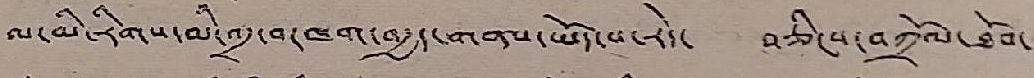ལ་མི་རིགས་མི་འདྲ་བ་ཁག་བརྒྱད་གནས་ཡོད་པ་རེད། བཅིངས་བཀྲོལ་ཐོབ་
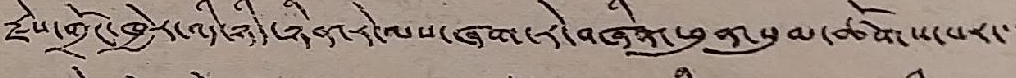རྗེས་གྲོང་ཁྱེར་འདི་ཉིད་ཉིན་རེ་ལས་ཞག་རེ་བཞིན་ཕུན་སུམ་ཚོགས་པར་་་
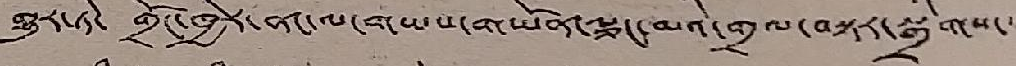གྱུར་ཏེ་ གྲོང་ཁྱེར་ནང་ལ་གཡས་གཡོན་ལྕང་མའི་གྲལ་བསྟར་སྒྲིགས་་་
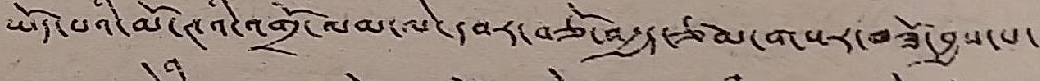ཡོད་པའི་མོ་ཊའི་འགྲོ་ལམ་ལེ་དབར་བཅོ་བརྒྱད་ཙམ་གསར་བཟོ་བྱས་པ་
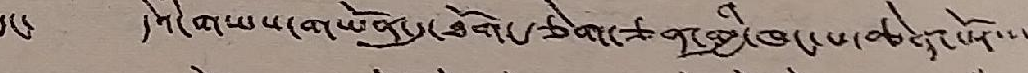དང་ དེའི་གཡས་གཡོན་དུ་ཐོག་རྩེག་ཅན་གྱི་ཁང་པ་ཆེན་པོར་་་
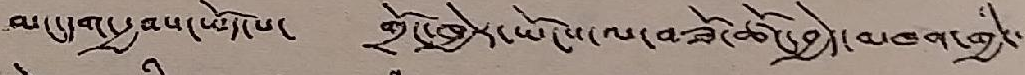མང་དག་རྒྱབས་ཡོད་པ་དང་ གྲོང་ཁྱེར་ཡོངས་ལ་བཟོ་ཚོང་བྱེད་མཁན་གྱི་་
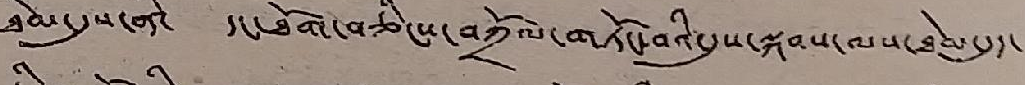ཐེམ་དུས་ནི་ དང་ཐོག་བཅིངས་བཀྲོལ་གཏོང་བའི་དུས་སྐབས་ལས་ཐེམ་དུད་
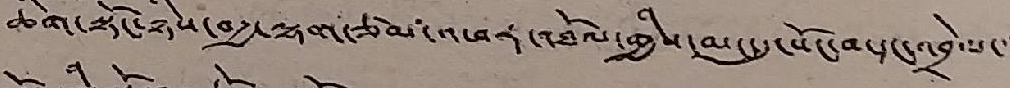ཆིག་སྟོང་ཉིས་བརྒྱ་ལྷག་ཙམ་འཕར་འཐོལ་གྱིས་མང་དུ་སོང་བ་དང་འབྲེལ་་
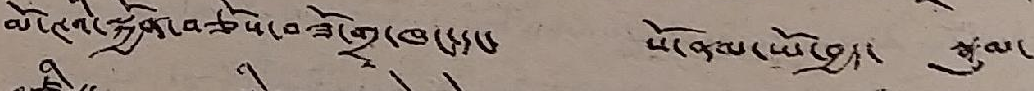མོ་ཊའི་སྐྱོན་བཅོས་བཟོ་གྲྭ་ཁང་དང་ སོ་ནམ་ཡོ་བྱད་ སྣུམ་
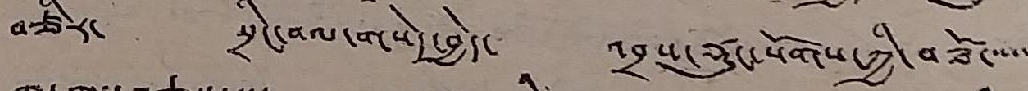བཙིར་ སྲིང་བལ་གསེད་བྱེད་ འབྲས་རྡུང་སོགས་ཀྱི་བཟོ་་་་
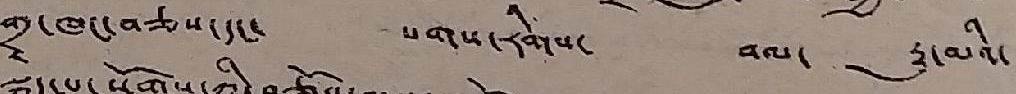གྲྭ་ཁང་བཅས་དང་ པགས་རིགས་ བལ་ རྒྱུ་མའི་
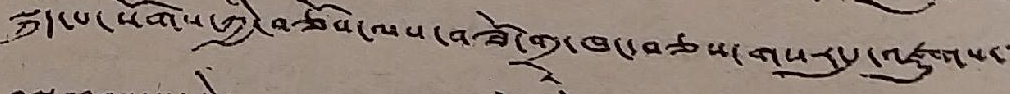སྐུད་པ་སོགས་ཀྱི་བཅོས་ལས་བཟོ་གྲྭ་ཁང་བཅས་གསར་དུ་འཛུགས་་
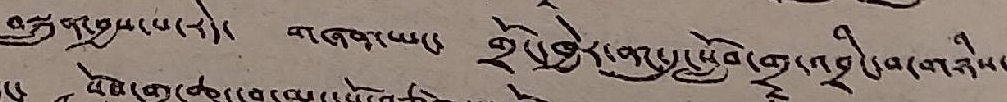བསྐྲུན་བྱས་པ་རེད་ གཞན་ཡང་ གྲོང་ཁྱེར་ནང་དུ་སློབ་གྲྭ་འབྲིང་བ་གཉིས་
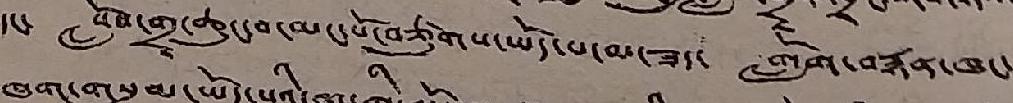དང་ སློབ་གྲྭ་ཆུང་བ་མང་པོ་བཙུགས་ཡོད་པ་མ་ཟད་ གློག་བརྙན་ཁང་
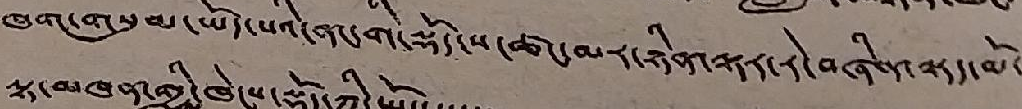ཁག་གསུམ་ཡོད་པའི་ནང་གི་སྡོད་ས་ཚང་མར་ཉིན་ལྟར་རེ་བཞིན་ལྟད་མོ་
